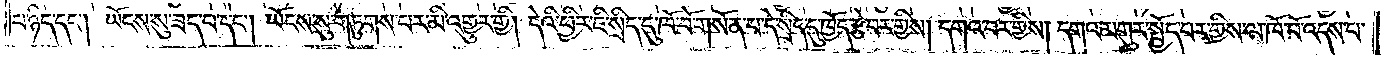པ་ཉིད་དང༌། ཡོངས་སུ་ཟད་པ་དང༌། ཡོངས་སུ་གཏུགས་པར་མི་འགྱུར་གྱི། དེའི་ཕྱིར་ཇི་སྲིད་དུ་ཁོ་བོ་གསོན་པ་དེ་སྲིད་དུ་ཁྱོད་རྩེ་བར་གྱིས། དགའ་བར་གྱིས། དགའ་མགུར་སྤྱོད་པར་གྱིས་ལ་ཁོ་བོ་འདས་པ་
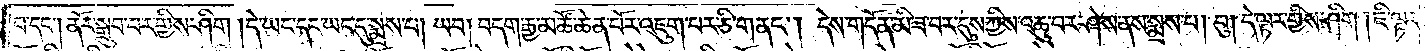པ་དང༌། ནོར་སྒྲུབ་པར་གྱིས་ཤིག །དེ་ཡང་དང་ཡང་དུ་སྨྲས་པ། ཡབ། བདག་རྒྱ་མཚོ་ཆེན་པོར་འཇུག་པར་ཅི་གནང༌། དེས་གདོན་མི་ཟ་བར་དུས་ཀྱིས་འཆུ་བར་ཤེས་ནས་སྨྲས་པ། བུ། དེ་ལྟར་གྱིས་ཤིག །ཇི་ལྟར་
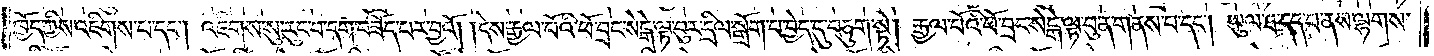ཁྱོད་ཀྱིས་འཇིགས་པ་དང༌། འཇིགས་སུ་རུང་བ་དག་བཟོད་པར་བྱའོ། །དེས་རྒྱལ་པོའི་ཕོ་བྲང་སེངྒེ་ལྟ་བུར་དྲིལ་སྒྲོག་པ་བྱེད་དུ་བཅུག་སྟེ། རྒྱལ་པོའི་ཕོ་བྲང་སེངྒེ་ལྟ་བུ་ན་གནས་པ་དང༌། ཡུལ་ཐ་དད་པ་ནས་ལྷགས་
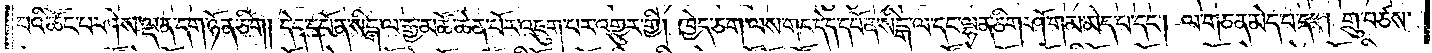པའི་ཚོང་པ་ཤེས་ལྡན་དག་ཉོན་ཅིག །དེད་དཔོན་སིངྒ་ལ་རྒྱ་མཚོ་ཆེན་པོར་འཇུག་པར་འགྱུར་གྱི། ཁྱེད་ཅག་ལས་གང་དེད་དཔོན་སིངྒ་ལ་དང་ལྷན་ཅིག་ཤོ་གམ་མེད་པ་དང༌། ལ་གཅན་མེད་པ་དང༌། གྲུ་བཙས་
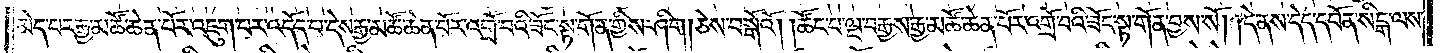མེད་པར་རྒྱ་མཚོ་ཆེན་པོར་འཇུག་པར་འདོད་པ་དེས་རྒྱ་མཚོ་ཆེན་པོར་འགྲོ་བའི་ཟོང་སྟ་གོན་གྱིས་ཤིག །ཅེས་བསྒོའོ། །ཚོང་པ་ལྔ་བརྒྱས་རྒྱ་མཚོ་ཆེན་པོར་འགྲོ་བའི་ཟོང་སྟ་གོན་བྱས་སོ། །དེ་ནས་དེད་དཔོན་སིངྒ་ལས་
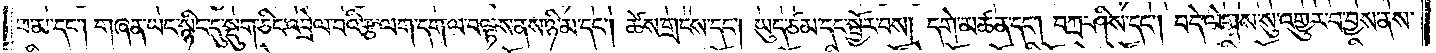ཕ་མ་དང༌། གཞན་ཡང་སྙིང་དུ་སྡུག་ཅིང་འབྲེལ་བའི་རྩ་ལག་དག་ལ་བལྟས་ནས་ཉི་མ་དང༌། ཚེས་གྲངས་དང༌། ཡུད་ཙམ་དང་སྦྱོར་བས། དགེ་མཚན་དང༌། བཀྲ་ཤིས་དང༌། བདེ་ལེགས་སུ་འགྱུར་བ་བྱས་ནས་
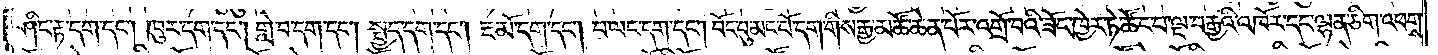ཤིང་རྟ་དག་དང༌། ཁུར་དག་དང༌། གླེ་བ་དག་དང༌། སྤྱད་དག་དང༌། རྔ་མོ་དག་དང༌། བ་ལང་དག་དང༌། བོང་བུ་མང་པོ་དག་གིས་རྒྱ་མཚོ་ཆེན་པོར་འགྲོ་བའི་ཟོང་ཁྱེར་ཏེ་ཚོང་པ་ལྔ་བརྒྱའི་འཁོར་དང་ལྷན་ཅིག་འཕགས་
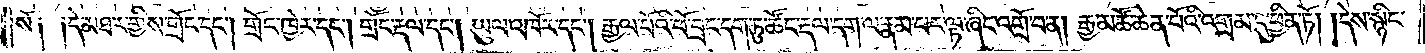སོ༑ ༑དེ་མཐར་གྱིས་གྲོང་དང༌། གྲོང་ཁྱེར་དང༌། གྲོང་རྡལ་དང༌། ཡུལ་འཁོར་དང༌། རྒྱལ་པོའི་ཕོ་བྲང་དག་ཏུ་ཚོང་རྡལ་དག་ལ་རྣམ་པར་ལྟ་ཞིང་འགྲོ་བ་ན། རྒྱ་མཚོ་ཆེན་པོའི་འགྲམ་དུ་ཕྱིན་ཏོ། །དེས་སྙིང་
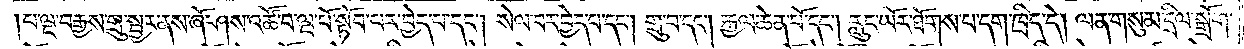པ་ལྔ་བརྒྱས་གྲུ་སྦྱར་ནས་ཞོ་ཤས་འཚོ་བ་ལྔ་པོ་སྟོབ་པར་བྱེད་པ་དང༌། སེལ་བར་བྱེད་པ་དང༌། གྲུ་བ་དང༌། རྒྱལ་ཆེན་པོ་དང༌། རླུང་ཡོར་ཐོགས་པ་དག་ཁྲིད་དེ། ལན་གསུམ་དྲིལ་སྒྲོག་
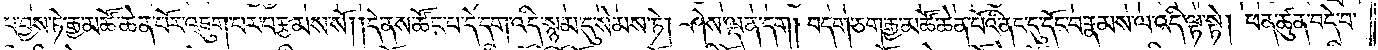པ་བྱས་ཏེ་རྒྱ་མཚོ་ཆེན་པོར་འཇུག་པར་བརྩམས་སོ། །དེ་ནས་ཚོང་པ་དེ་དག་འདི་སྙམ་དུ་སེམས་ཏེ། ཤེས་ལྡན་དག །བདག་ཅག་རྒྱ་མཚོ་ཆེན་པོའི་ནང་དུ་དོང་བ་རྣམས་ལ་འདི་ལྟ་སྟེ། ཕན་ཚུན་བདེ་བ་
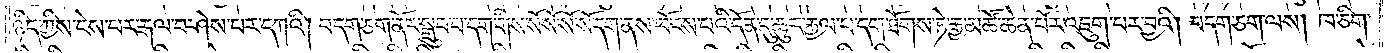ཉིད་ཀྱིས་ངེས་པར་རྒལ་བ་ཤེས་པར་དཀའི། བདག་ཅག་ནོར་སྒྲུབ་པ་དག་གིས་སོ་སོ་སོ་སོ་དག་ནས་ཕོངས་པའི་དོན་དུ་ཆུར་རྐྱལ་བ་དག་ཐོགས་ཏེ་རྒྱ་མཚོ་ཆེན་པོར་འཇུག་པར་བྱའི། །བདག་ཅག་ལས། ཁ་ཅིག་
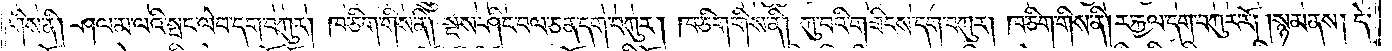གིས་ནི། ཤལ་མ་ལའི་སྤང་ལེབ་དག་བཀུར། ཁ་ཅིག་གིས་ནི། སྔས་ཤིང་བལ་ཅན་དག་བཀུར། ཁ་ཅིག་གིས་ནི། ཀུ་བའི་གཟིངས་དག་བཀུར། ཁ་ཅིག་གིས་ནི། ར་རྐྱལ་དག་བཀུར་རོ། །སྙམ་ནས། དེ་
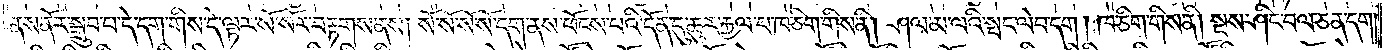ནས་ནོར་སྒྲུབ་པ་དེ་དག་གིས་དེ་ལྟར་སོ་སོར་བརྟགས་ནས། སོ་སོ་སོ་སོ་དག་ནས་ཕོངས་པའི་དོན་དུ་ཆུར་རྐྱལ་པ་ཁ་ཅིག་གིས་ནི། ཤལ་མ་ལའི་སྤང་ལེབ་དག །ཁ་ཅིག་གིས་ནི། སྔས་ཤིང་བལ་ཅན་དག་
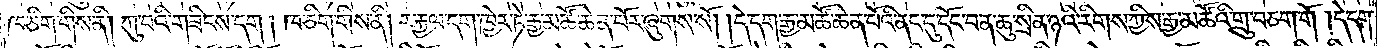ཁ་ཅིག་གིས་ནི། ཀུ་བའི་གཟིངས་དག །ཁ་ཅིག་གིས་ནི། ར་རྐྱལ་དག་ཁྱེར་ཏེ་རྒྱ་མཚོ་ཆེན་པོར་ཞུགས་སོ། །དེ་དག་རྒྱ་མཚོ་ཆེན་པོའི་ནང་དུ་དོང་བ་ན་ཆུ་སྲིན་ཉའི་རིགས་ཀྱིས་རྒྱ་མཚོའི་གྲུ་བཅག་གོ། དེ་དག་
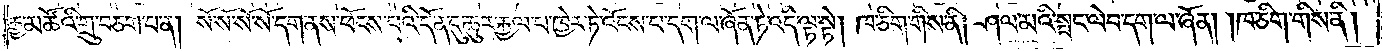རྒྱ་མཚོའི་གྲུ་བཅག་པ་ན། སོ་སོ་སོ་སོ་དག་ནས་ཕོངས་པའི་དོན་དུ་ཆུར་རྐྱལ་བ་ཁྱེར་ཏེ་འོངས་པ་དག་ལ་ཞོན་ཏེ་འདི་ལྟ་སྟེ། ཁ་ཅིག་གིས་ནི། ཤལ་མའི་སྤང་ལེབ་དག་ལ་ཞོན། །ཁ་ཅིག་གིས་ནི།
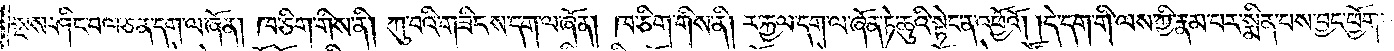སྔས་ཤིང་བལ་ཅན་དག་ལ་ཞོན། ཁ་ཅིག་གིས་ནི། ཀུ་བའི་གཟིངས་དག་ལ་ཞོན། ཁ་ཅིག་གིས་ནི། ར་རྐྱལ་དག་ལ་ཞོན་ཏེ་ཆུའི་སྟེང་ན་འཕྱོའོ། །དེ་དག་གི་ལས་ཀྱི་རྣམ་པར་སྨིན་པས་བྱང་ཕྱོགས་
